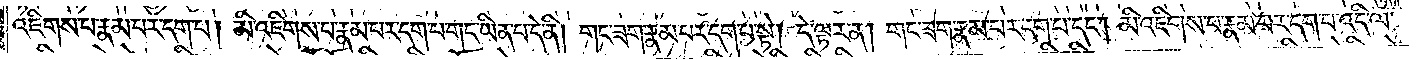འཇིགས་པ་རྣམ་པར་དག་པ། མི་འཇིགས་པ་རྣམ་པར་དག་པ་གང་ཡིན་པ་དེ་ནི། གང་ཟག་རྣམ་པར་དག་པ་སྟེ། དེ་ལྟར་ན། གང་ཟག་རྣམ་པར་དག་པ་དང༌། མི་འཇིགས་པ་རྣམ་པར་དག་པ་འདི་ལ་
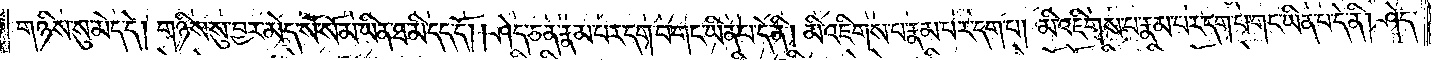གཉིས་སུ་མེད་དེ། གཉིས་སུ་བྱར་མེད་སོ་སོ་མ་ཡིན་ཐ་མི་དད་དོ། །ཤེད་ཅན་རྣམ་པར་དག་པ་གང་ཡིན་པ་དེ་ནི། མི་འཇིགས་པ་རྣམ་པར་དག་པ། མི་འཇིགས་པ་རྣམ་པར་དག་པ་གང་ཡིན་པ་དེ་ནི། ཤེད་
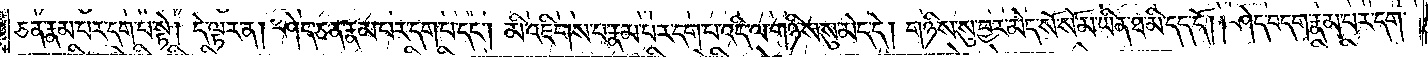ཅན་རྣམ་པར་དག་པ་སྟེ། དེ་ལྟར་ན། ཤེད་ཅན་རྣམ་པར་དག་པ་དང༌། མི་འཇིགས་པ་རྣམ་པར་དག་པ་འདི་ལ་གཉིས་སུ་མེད་དེ། གཉིས་སུ་བྱར་མེད་སོ་སོ་མ་ཡིན་ཐ་མི་དད་དོ། །ཤེད་བདག་རྣམ་པར་དག་
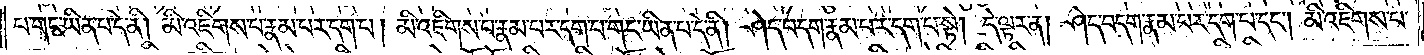པ་གང་ཡིན་པ་དེ་ནི། མི་འཇིགས་པ་རྣམ་པར་དག་པ། མི་འཇིགས་པ་རྣམ་པར་དག་པ་གང་ཡིན་པ་དེ་ནི། ཤེད་བདག་རྣམ་པར་དག་པ་སྟེ། དེ་ལྟར་ན། ཤེད་བདག་རྣམ་པར་དག་པ་དང༌། མི་འཇིགས་པ་
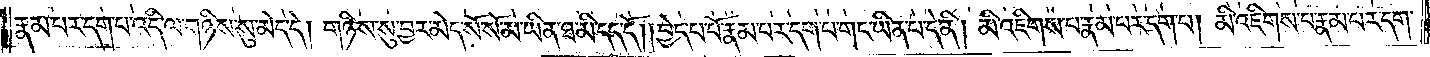རྣམ་པར་དག་པ་འདི་ལ་གཉིས་སུ་མེད་དེ། གཉིས་སུ་བྱར་མེད་སོ་སོ་མ་ཡིན་ཐ་མི་དད་དོ། །བྱེད་པ་པོ་རྣམ་པར་དག་པ་གང་ཡིན་པ་དེ་ནི། མི་འཇིགས་པ་རྣམ་པར་དག་པ། མི་འཇིགས་པ་རྣམ་པར་དག་
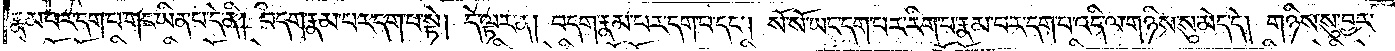རྣམ་པར་དག་པ་གང་ཡིན་པ་དེ་ནི། བདག་རྣམ་པར་དག་པ་སྟེ། དེ་ལྟར་ན། བདག་རྣམ་པར་དག་པ་དང༌། སོ་སོ་ཡང་དག་པར་རིག་པ་རྣམ་པར་དག་པ་འདི་ལ་གཉིས་སུ་མེད་དེ། གཉིས་སུ་བྱར་
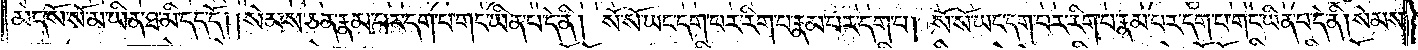མེད་སོ་སོ་མ་ཡིན་ཐ་མི་དད་དོ། །སེམས་ཅན་རྣམ་པར་དག་པ་གང་ཡིན་པ་དེ་ནི། སོ་སོ་ཡང་དག་པར་རིག་པ་རྣམ་པར་དག་པ། སོ་སོ་ཡང་དག་པར་རིག་པར་རྣམ་པར་དག་པ་གང་ཡིན་པ་དེ་ནི། སེམས་
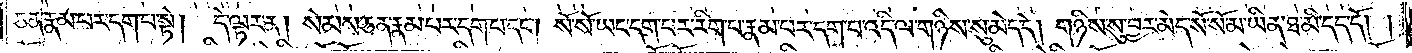ཅན་རྣམ་པར་དག་པ་སྟེ། དེ་ལྟར་ན། སེམས་ཅན་རྣམ་པར་དག་པ་དང༌། སོ་སོ་ཡང་དག་པར་རིག་པ་རྣམ་པར་དག་པ་འདི་ལ་གཉིས་སུ་མེད་དེ། གཉིས་སུ་བྱར་མེད་སོ་སོ་མ་ཡིན་ཐ་མི་དད་དོ། །
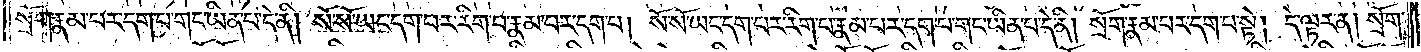སྲོག་རྣམ་པར་དག་པ་གང་ཡིན་པ་དེ་ནི། སོ་སོ་ཡང་དག་པར་རིག་པ་རྣམ་པར་དག་པ། སོ་སོ་ཡང་དག་པར་རིག་པ་རྣམ་པར་དག་པ་གང་ཡིན་པ་དེ་ནི། སྲོག་རྣམ་པར་དག་པ་སྟེ། དེ་ལྟར་ན། སྲོག་
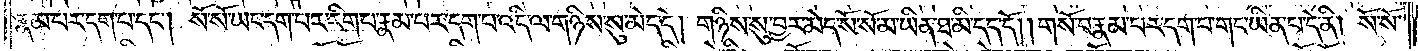རྣམ་པར་དག་པ་དང༌། སོ་སོ་ཡང་དག་པར་རིག་པ་རྣམ་པར་དག་པ་འདི་ལ་གཉིས་སུ་མེད་དེ། གཉིས་སུ་བྱར་མེད་སོ་སོ་མ་ཡིན་ཐ་མི་དད་དོ། །གསོ་བ་རྣམ་པར་དག་པ་གང་ཡིན་པ་དེ་ནི། སོ་སོ་
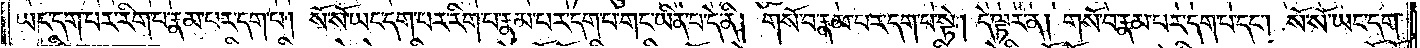ཡང་དག་པར་རིག་པ་རྣམ་པར་དག་པ། སོ་སོ་ཡང་དག་པར་རིག་པ་རྣམ་པར་དག་པ་གང་ཡིན་པ་དེ་ནི། གསོ་བ་རྣམ་པར་དག་པ་སྟེ། དེ་ལྟར་ན། གསོ་བ་རྣམ་པར་དག་པ་དང༌། སོ་སོ་ཡང་དག་
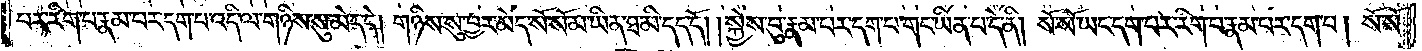པར་རིག་པ་རྣམ་པར་དག་པ་འདི་ལ་གཉིས་སུ་མེད་དེ། གཉིས་སུ་བྱར་མེད་སོ་སོ་མ་ཡིན་ཐ་མི་དད་དོ། །སྐྱེས་བུ་རྣམ་པར་དག་པ་གང་ཡིན་པ་དེ་ནི། སོ་སོ་ཡང་དག་པར་རིག་པ་རྣམ་པར་དག་པ། སོ་སོ་
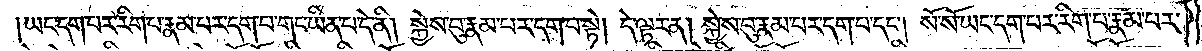ཡང་དག་པར་རིག་པ་རྣམ་པར་དག་པ་གང་ཡིན་པ་དེ་ནི། སྐྱེས་བུ་རྣམ་པར་དག་པ་སྟེ། དེ་ལྟར་ན། སྐྱེས་བུ་རྣམ་པར་དག་པ་དང༌། སོ་སོ་ཡང་དག་པར་རིག་པ་རྣམ་པར་
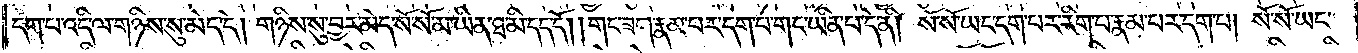དག་པ་འདི་ལ་གཉིས་སུ་མེད་དེ། གཉིས་སུ་བྱར་མེད་སོ་སོ་མ་ཡིན་ཐ་མི་དད་དོ། །གང་ཟག་རྣམ་པར་དག་པ་གང་ཡིན་པ་དེ་ནི། སོ་སོ་ཡང་དག་པར་རིག་པ་རྣམ་པར་དག་པ། སོ་སོ་ཡང་
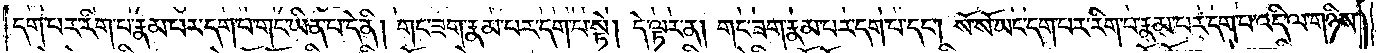དག་པར་རིག་པ་རྣམ་པར་དག་པ་གང་ཡིན་པ་དེ་ནི། གང་ཟག་རྣམ་པར་དག་པ་སྟེ། དེ་ལྟར་ན། གང་ཟག་རྣམ་པར་དག་པ་དང༌། སོ་སོ་ཡང་དག་པར་རིག་པ་རྣམ་པར་དག་པ་འདི་ལ་གཉིས་
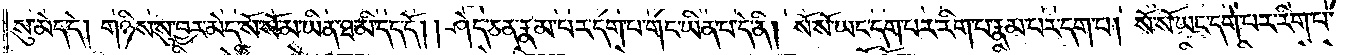སུ་མེད་དེ། གཉིས་སུ་བྱར་མེད་སོ་སོ་མ་ཡིན་ཐ་མི་དད་དོ། །ཤེད་ཅན་རྣམ་པར་དག་པ་གང་ཡིན་པ་དེ་ནི། སོ་སོ་ཡང་དག་པར་རིག་པ་རྣམ་པར་དག་པ། སོ་སོ་ཡང་དག་པར་རིག་པ་
